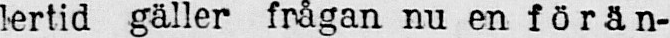lertid gäller frågan nu en förän-
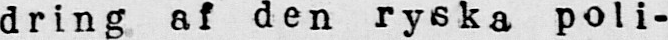dring af den ryska poli-
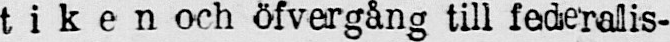t i k e n och öfvergång till federalis-
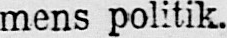mens politik.
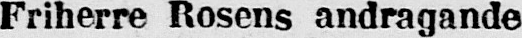Friherre Rosens andragande
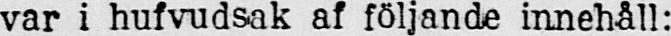var i hufvudsak af följande innehåll:
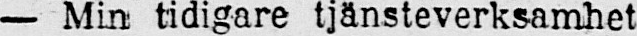— Min tidigare tjänsteverksamhet
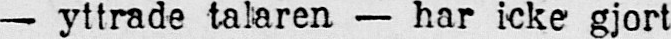— yttrade talaren — har icke gjort
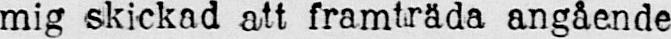mig skickad att framträda angående
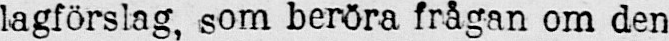lagförslag, som beröra frågan om den
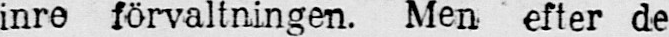inre förvaltningen. Men efter de
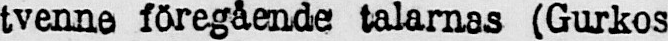tvenne föregående talarnas (Gurkos
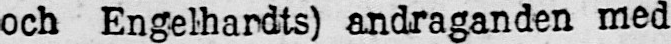och Engelhardts) andraganden med
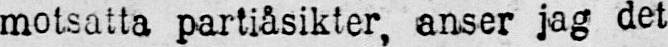motsatta partiåsikter, anser jag det
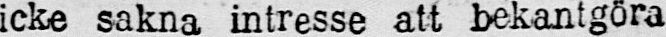icke sakna intresse att bekantgöra
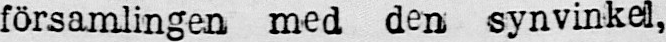församlingen med den synvinkel,
